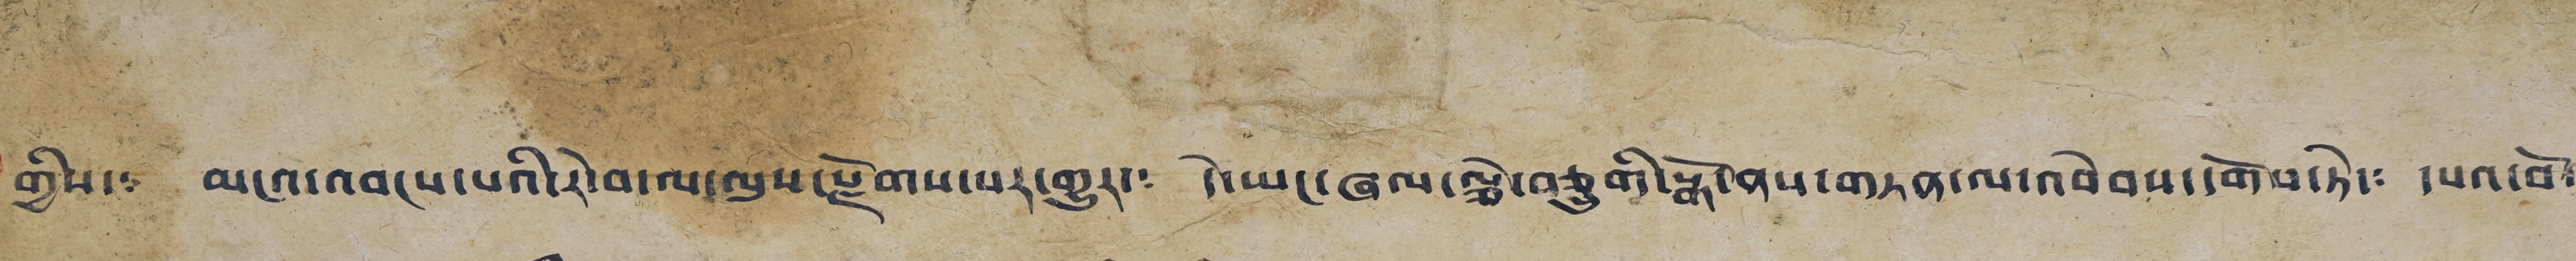གྱིས་༴ མངའ་འབངས་པའི་རེ་བ་ལ་ལུས་རྫོགས་པར་གྱུར་༴ དེ་ཡང་ཞལ་ལྕེ་བཅུགི་སྒོ་ནས་གཏན་ལ་འབེབས་དགོས་ཏེ་༴ དཔའ་བོ་
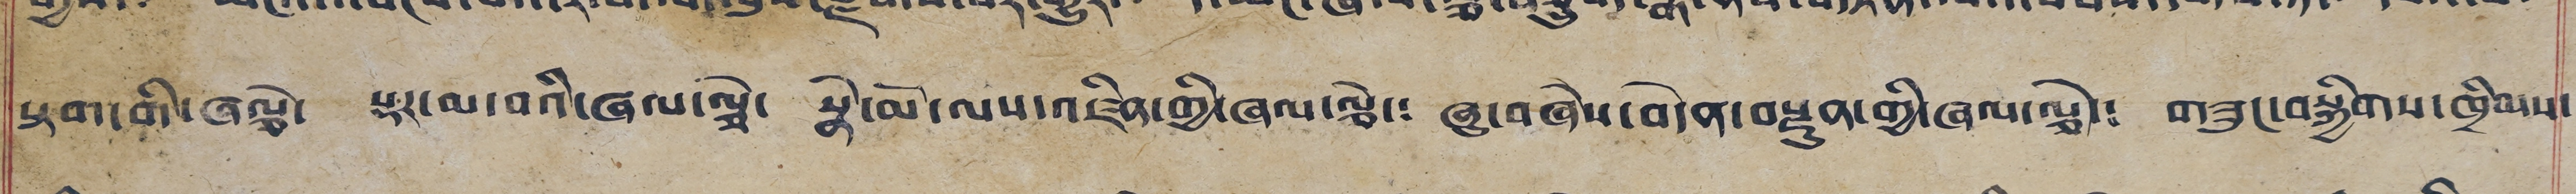སྟག་གི་ཞལྕེ་། སྡར་མ་བའི་ཞལ་ལྕེ། སྣེ་མོ་ལས་འཛིན་གྱི་ཞལ་ལྕེ་༴ ཞུ་བཞེས་བདེན་བརྫུན་གྱི་ཞལ་ལྕེ་༴ གཟུང་བསྐྱིགས་ཁྲིམས་
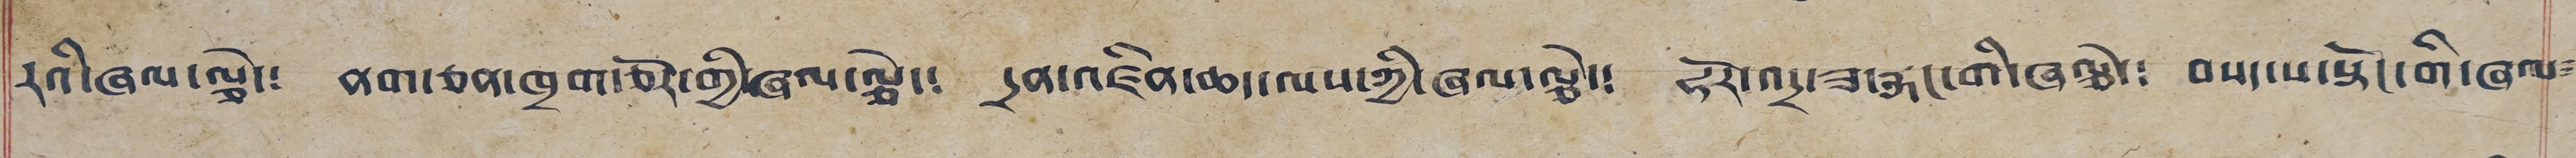རའི་ཞལ་ལྕེ་༴ ནག་ཅན་ཁྲག་ཅོར་གྱི་ཞལ་ལྕེ་༴ དྲན་འཛིན་ཆད་ལས་ཀྱི་ཞལ་ལྕེ་༴ ཧོར་འདྲ་ཟ་རྐང་གི་ཞལྕེ་༴ བསད་པ་སྟོང་གི་ཞལ༴
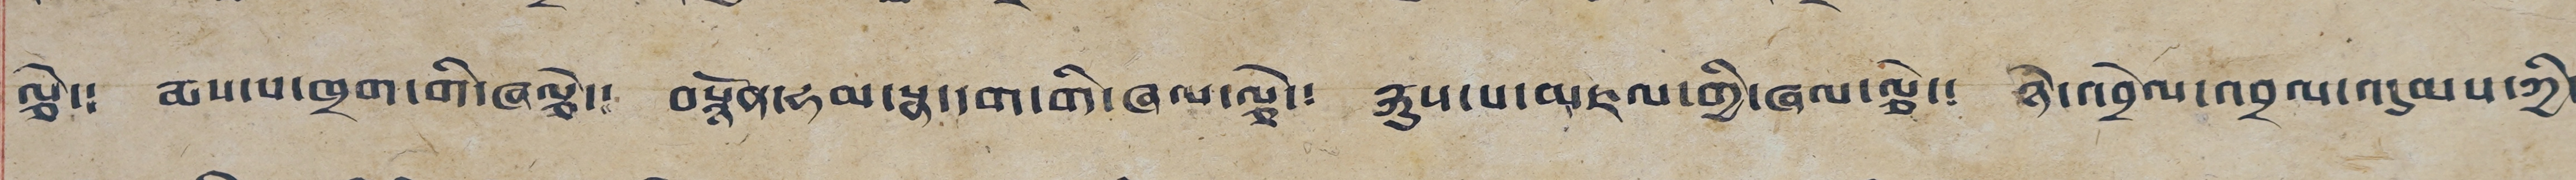ལྕེ་༴ རྨས་པ་ཁྲག་གི་ཞལྕེ་༴ བསྙོན་ཧམ་སྣ་དག་གི་ཞལ་ལྕེ་༴ རྐུས་པ་མཇལ་གྱི་ཞལ་ལྕེ་༴ ཉེ་འབྲེལ་འབྲལ་འདུམས་ཀྱི་
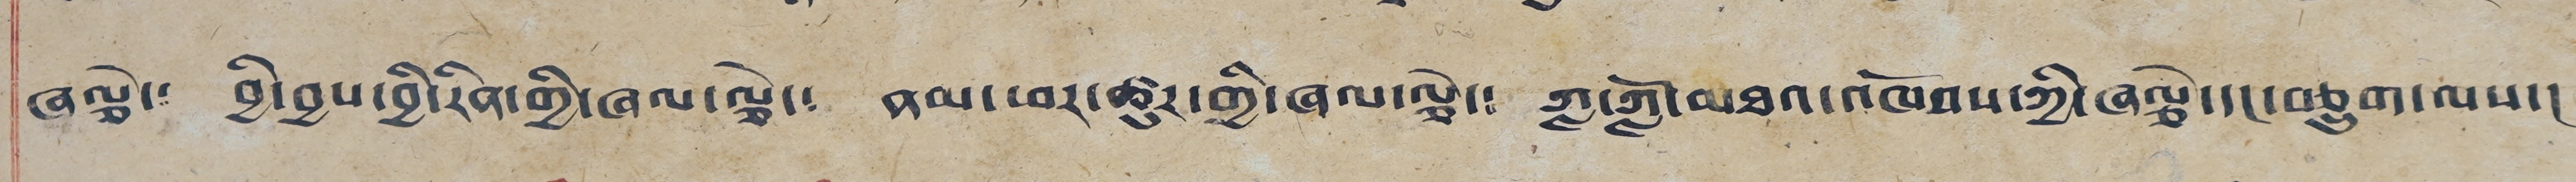ཞལྕེ་༴ བྱི་བྱས་བྱི་རིན་གྱི་ཞལ་ལྕེ་༴ ནམ་ཕར་ཚུར་གྱི་ཞལ་ལྕེ་༴ ཀླ་གློ་མཐའ་འཁོབས་ཀྱི་ཞལྕེ་དང་བཅུག་ལས་༴
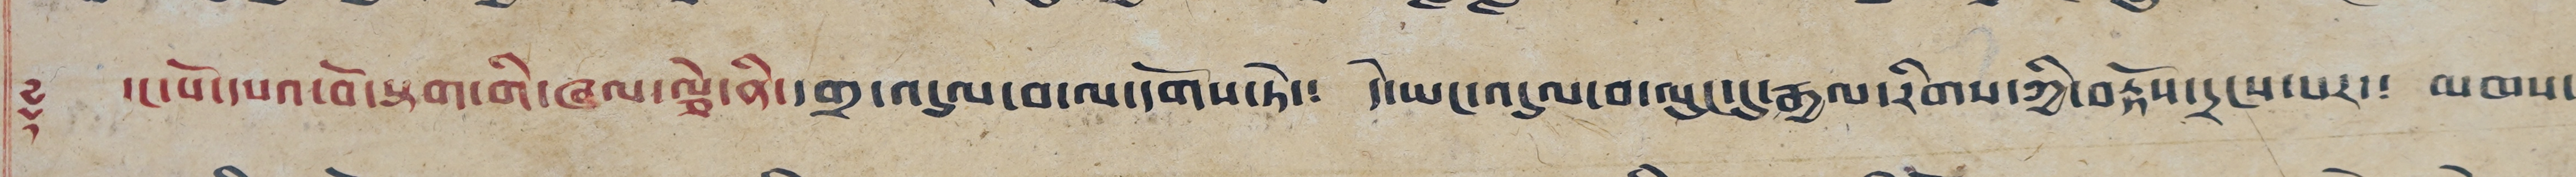༈ དང་པོ་དཔའ་བོ་སྟག་གི་ཞལ་ལྕེ་ནི་དགྲ་འདུལ་བ་ལ་དགོས་ཏེ་༴ དེ་ཡང་འདུལ་བ་ལུང་དུ་རྒྱལ་རིགས་ཀྱི་བརྟོས་དྲངས་པར་༴ མཁས་
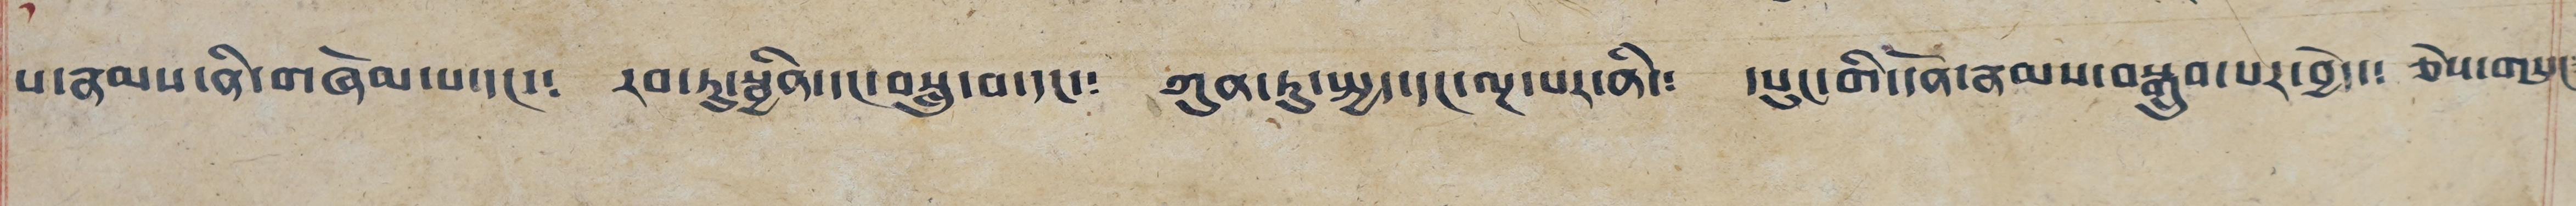པ་རྣམས་ནི་གཞོམ་པ་དང་༴ རབ་ཏུ་སྦྱིན་དང་བསླུ་བ་དང་༴ ཀུན་ཏུ་སྤྱད་དང་ལྔ་པར་ནི་༴ དཔུང་གི་དོན་རྣམས་བསྒྲུབ་པར་བྱེད་༴ ཅེས་གསུང༴
